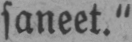saneet."
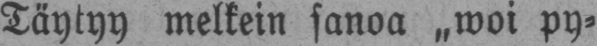Täytyy melkein sanoa „woi py-
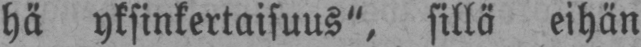hä yksinkertaisuus", sillä eihän
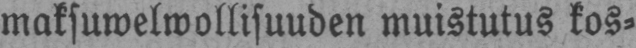maksuwelwollisuuden muistutus kos-
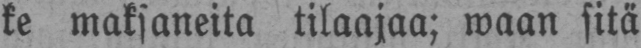ke maksaneita tilaajaa; waan sitä
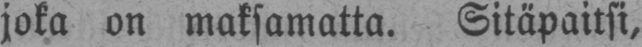joka on maksamatta. Sitäpaitsi,
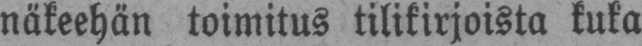näkeehän toimitus tilikirjoista kuka
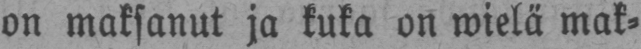on maksanut ja kuka on wielä mak-
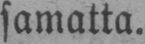samatta.
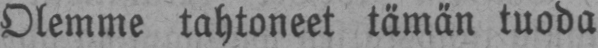Olemme tahtoneet tämän tuoda
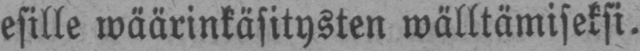esille wäärinkäsitysten wälltämiseksi.
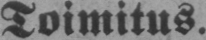Toimitus.
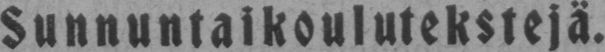Sunnuntaikoulutekstejä.
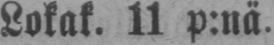Lokak. 11 p:nä.
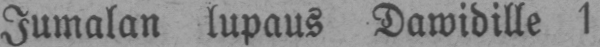Jumalan lupaus Dawidille 1
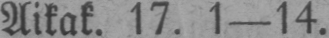Aikak. 17. 1—14.
